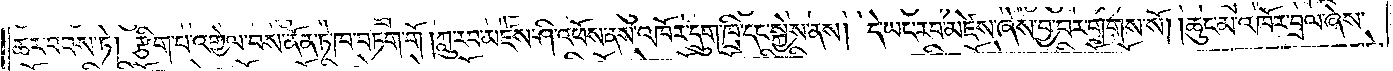ཆར་བབས་ཏེ། རྩིག་པ་འགྱེལ་བས་ནོན་ཏེ་ཁ་བཏག་གོ །ཀླུ་རབ་མཛེས་ཤི་འཕོས་ནས་འཁོར་དྲུག་ཁྲི་དང་སྐྱེས་ནས། དེ་ཡང་རབ་མཛེས་ཞེས་བྱ་བར་གྲགས་སོ། །ཆུང་མ་འཁོར་བྲལ་ཞེས་
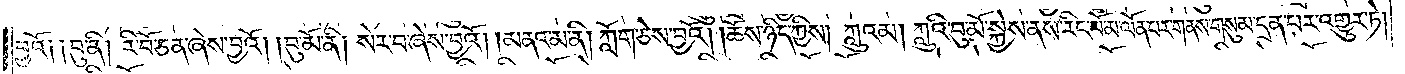བྱའོ༑ ༑བུ་ནི། རི་བོ་ཅན་ཞེས་བྱའོ། །བུ་མོ་ནི། སེར་བ་ཞེས་བྱའོ། །མནའ་མ་ནི། ཀློག་ཅེས་བྱའོ། །ཆོས་ཉིད་ཀྱིས། ཀླུའམ། ཀླུའི་བུ་མོ་སྐྱེས་ནས་རིང་པོ་མ་ལོན་པར་གནས་གསུམ་དྲན་པར་འགྱུར་ཏེ།
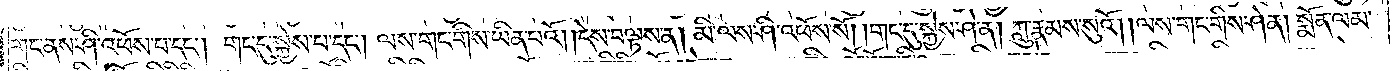གང་ནས་ཤི་འཕོས་པ་དང༌། གང་དུ་སྐྱེས་པ་དང༌། ལས་གང་གིས་ཡིན་པའོ། །དེས་བལྟས་ན། མི་ལས་ཤི་འཕོས་སོ། །གང་དུ་སྐྱེས་ཤེ་ན། ཀླུ་རྣམས་སུའོ། །ལས་གང་གིས་ཤེ་ན། སྨོན་ལམ་
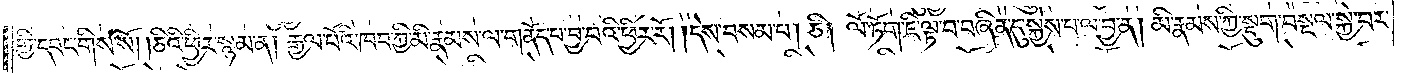གྱི་དབང་གིས་སོ། །ཅིའི་ཕྱིར་སྙམ་ན། རྒྱལ་པོའི་ཁབ་ཀྱི་མི་རྣམས་ལ་གནོད་པ་བྱ་བའི་ཕྱིར་རོ། །དེས་བསམ་པ། ཅི། ལོ་ཏོག་ཇི་ལྟ་བ་བཞིན་དུ་སྐྱེས་པ་ལ་བྱ་ན། མི་རྣམས་ཀྱི་སྡུག་བསྔལ་སྐྱེ་བར་
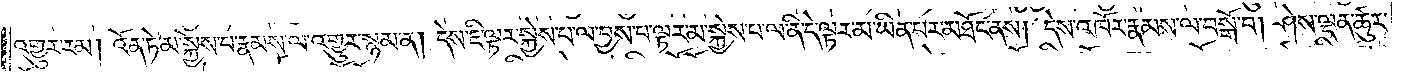འགྱུར་རམ། འོན་ཏེ་མ་སྐྱེས་པ་རྣམས་ལ་འགྱུར་སྙམ་ན། དེས་ཇི་ལྟར་སྐྱེས་པ་ལ་བྱས་པ་ལྟར་མ་སྐྱེས་པ་ལ་ནི་དེ་ལྟར་མ་ཡིན་པར་མཐོང་ནས། དེས་འཁོར་རྣམས་ལ་བསྒོ་བ། ཤེས་ལྡན་ཚུར་
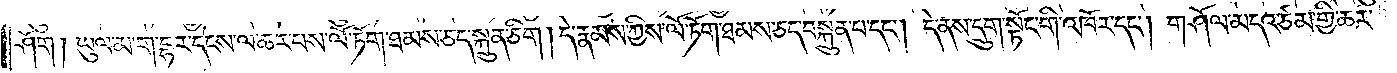ཤོག། ཡུལ་མ་ག་དྷར་དེངས་ལ་ཆར་པས་ལོ་ཏོག་ཐམས་ཅད་སྐྲུན་ཅིག། དེ་རྣམས་ཀྱིས་ལོ་ཏོག་ཐམས་ཅད་བསྐྲུན་པ་དང༌། དེ་ནས་དྲུག་སྟོང་གི་འཁོར་དང༌། གཤོལ་མདའ་ཙམ་གྱི་ཆར་
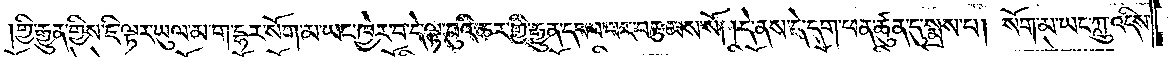གྱི་རྒྱུན་གྱིས་ཇི་ལྟར་ཡུལ་མ་ག་དྷར་སོག་མ་ཡང་ཁྱེར་བ་དེ་ལྟ་བུའི་ཆར་གྱི་རྒྱུན་དབབ་པར་བརྩམས་སོ། །དེ་ནས་དེ་དག་ཕན་ཚུན་དུ་སྨྲས་པ། སོག་མ་ཡང་ཀླུ་འདིས་
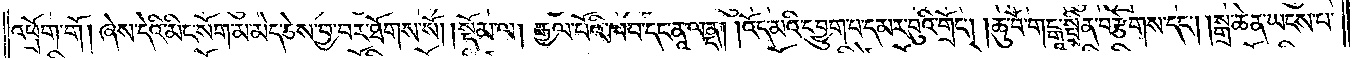འཕྲོག་གོ། ཞེས་དེའི་མིང་སོག་མ་མེད་ཅེས་བྱ་བར་ཐོགས་སོ།    །སྡོམ་ལ། རྒྱལ་པོའི་ཁབ་དང་ནཱ་ལནྡ། །འོད་མའི་དབྱུག་པ་དམར་བུའི་གྲོང༌། །ཆུ་བོ་གངྒཱ་སྤྲིན་བརྩེགས་དང༌། །སྒྲ་ཆེན་ཡངས་པ་
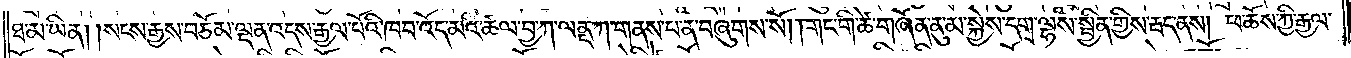ཐ་མ་ཡིན། །སངས་རྒྱས་བཅོམ་ལྡན་འདས་རྒྱལ་པོའི་ཁབ་འོད་མའི་ཚལ་བྱ་ཀ་ལནྡ་ཀ་གནས་པ་ན་བཞུགས་སོ། །གང་གི་ཚེ་གཞོན་ནུ་མ་སྐྱེས་དགྲ་ལྷས་སྦྱིན་གྱིས་རྦད་ནས། ཕ་ཆོས་ཀྱི་རྒྱལ་
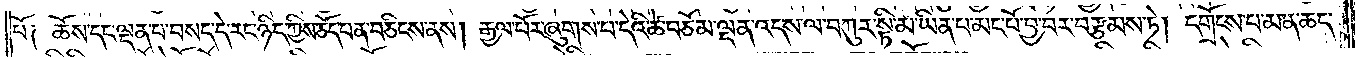པོ༑ ཆོས་དང་ལྡན་པ་བསད་དེ་རང་ཉིད་ཀྱིས་ཅོད་པན་བཅིངས་ནས། རྒྱལ་པོར་ཞུགས་པ་དེའི་ཚེ་བཅོམ་ལྡན་འདས་ལ་བཀུར་སྟི་མ་ཡིན་པ་མང་པོ་བྱ་བར་བརྩམས་ཏེ། དགོངས་པ་མན་ཆད་
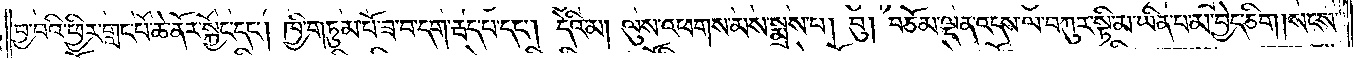བྱ་བའི་ཕྱིར་གླང་པོ་ཆེ་ནོར་སྐྱོང་དང༌། ཁྱི་གཏུམ་པོ་ཟ་བ་དག་རྦད་པ་དང༌། དེའི་མ། ལུས་འཕགས་མས་སྨྲས་པ། བུ། བཅོམ་ལྡན་འདས་ལ་བཀུར་སྟི་མ་ཡིན་པ་མ་བྱེད་ཅིག །སངས་
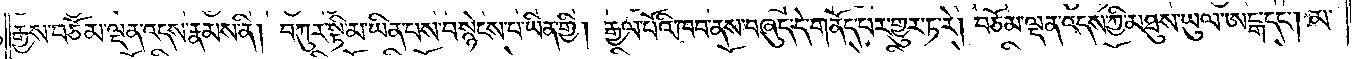རྒྱས་བཅོམ་ལྡན་འདས་རྣམས་ནི། བཀུར་སྟི་མ་ཡིན་པས་བསྙེངས་པ་ཡིན་གྱི། རྒྱལ་པོའི་ཁབ་ནས་བཞུད་དེ་གནོད་པར་གྱུར་ཏ་རེ། བཅོམ་ལྡན་འདས་ཀྱི་མཐུས་ཡུལ་ཨངྒ་དང༌། མ་
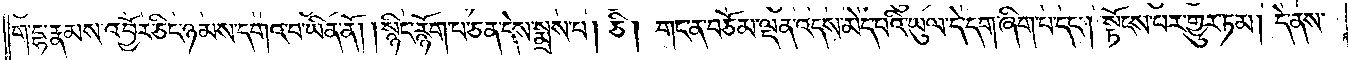ག་དྷ་རྣམས་འབྱོར་ཅིང་ཉམས་དགའ་བ་ཡིན་ནོ། །སྙིང་རྙོག་པ་ཅན་དེས་སྨྲས་པ། ཅི། གང་ན་བཅོམ་ལྡན་འདས་མེད་པའི་ཡུལ་དེ་དག་ཞིག་པ་དང༌། སྟོངས་པར་གྱུར་ཏམ། དེ་ནས་
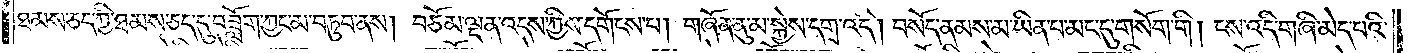ཐམས་ཅད་ཀྱི་ཐམས་ཅད་དུ་བཟློག་ཀྱང་མ་བཏུབ་ནས། བཅོམ་ལྡན་འདས་ཀྱིས་དགོངས་པ། གཞོན་ནུ་མ་སྐྱེས་དགྲ་འདི། བསོད་ནམས་མ་ཡིན་པ་མང་དུ་གསོག་གི། ངས་འདི་གཞི་མེད་པའི་
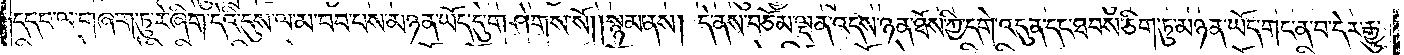དད་པ་ལ་གཞག་ཏུ་རེ་ཞིག་དེའི་དུས་ལ་མ་བབ་པས་མཉན་ཡོད་དུ་གཤེགས་སོ། །སྙམ་ནས། དེ་ནས་བཅོམ་ལྡན་འདས་ཉན་ཐོས་ཀྱི་དགེ་འདུན་དང་ཐབས་ཅིག་ཏུ་མཉན་ཡོད་གང་ན་བ་དེར་རྒྱུ་
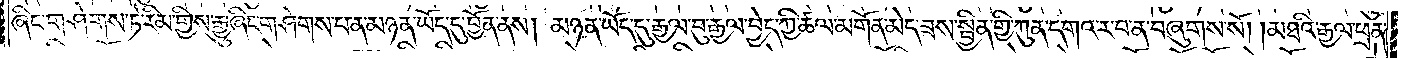ཞིང་གཤེགས་ཏེ་རིམ་གྱིས་རྒྱུ་ཞིང་གཤེགས་པ་ན་མཉན་ཡོད་དུ་བྱོན་ནས། མཉན་ཡོད་དུ་རྒྱལ་བུ་རྒྱལ་བྱེད་ཀྱི་ཚལ་མགོན་མེད་ཟས་སྦྱིན་གྱི་ཀུན་དགའ་ར་བ་ན་བཞུགས་སོ། །མཐའི་རྒྱལ་ཕྲན་
